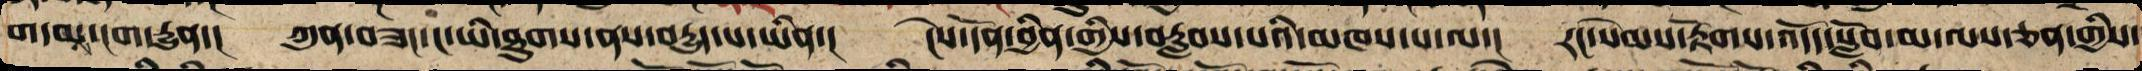གདམས་ངག་རྒྱུན་།   ཀུན་བཟང་ང་ཡི་ཐུགས་ནས་བདྱུད་པ་ཡིན་།   ངེས་དོན་བྱིན་གྱིས་བརླབས་པའི་མཁས་པ་ལ་།    རང་སེམས་རྟོགས་འདོད་སློབ་མ་ལས་ཅན་གྱིས་
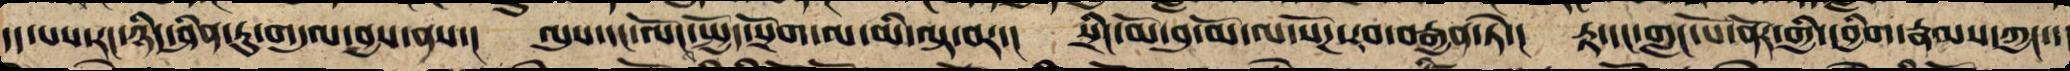དད་པས་རང་ཉིད་ཤིན་ཏུ་གདུལ་བྱས་ནས་།   ལུས་དང་ལོང་སྤྱོད་སྲོག་ལ་མི་ལྟ་བར་།   སྲིང་མོ་བུ་མོ་ལ་སོཌ་རབ་བརྒྱན་ཏེ་།   རྟ་དང་གླང་པོ་ནོར་གྱི་དབྱིག་རྣམས་ཀྱང་་
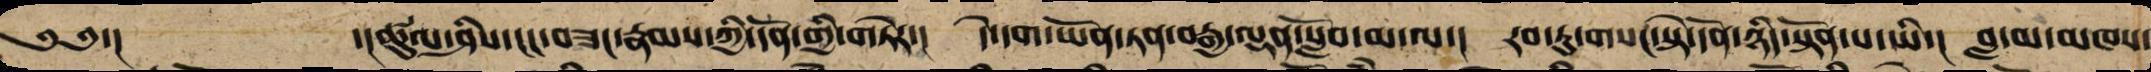༄༅་།            ་།ཚུལ་ཤིས་ངང་བཟང་རྣམས་ཀྱི་དོན་གྱི་གཏེར་།    དེ་དག་ཡོན་ཏན་བརྒྱ་ལྡན་སློབ་མ་ལ་།    རབ་ཏུ་གསང་སྟེ་དོན་ཉིད་སྟོན་པ་ཡི་།    བླ་མ་མཁས་
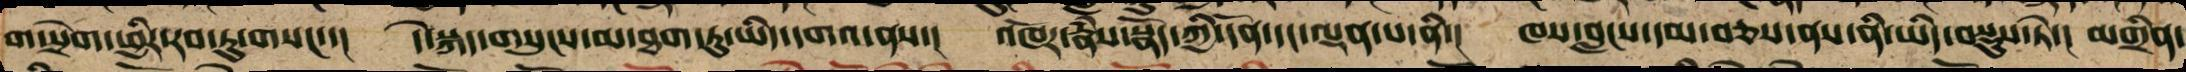ག་སྲེག་ཕྱིར་རབ་ཏུ་གསང་་།   དེ་སྐད་གསུངས་མ་ཐག་ཏུ་ཡིད་དགའ་ནས་།   འཁོར་རྣཾས་སྣོད་ཀྱི་དོན་དང་ལྡན་པ་ནི་།   ཁས་བླངས་དམ་བཅས་ནས་ནི་ཡིད་བསྡུས་ཏེ་།   མགྲིན་
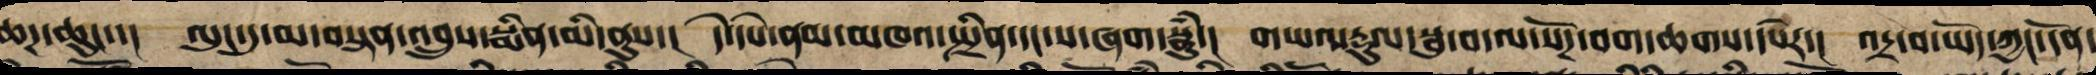ཆཌ་ཆུང་་།   ལུང་དུ་མ་བསྟན་འབྲུས་སྨིན་མི་ནུས་།   དེ་དཔེ་ནམ་མཁའ་སྤྲིན་དང་ས་ཞག་སྣུཾ་།   གཡའ་རྡུལ་ལྦུ་བ་ལ་སོཌ་བག་ཆགས་དཔེར་།   འདྲ་བ་ཡོད་ཀྱང་དོན་
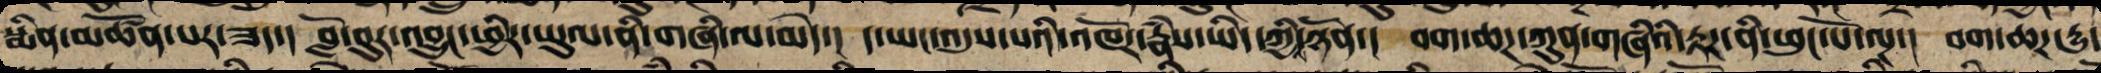སྨིན་མཚོན་པར་ཟད་།   གློ་བུར་འབྱུང་ཕྱིར་ཡུལ་ནི་གཞི་ལ་མེད་།    ད་ཡང་འདུས་པའི་འཁོར་རྣཾས་ཡིད་ཀྱི་ཉོན་།   བག་ཆཌ་ཀུན་གཞིའི་རྟཌ་ནི་ཕུང་པོ་ལྔ་།   བག་ཆཌ་དྱུ་
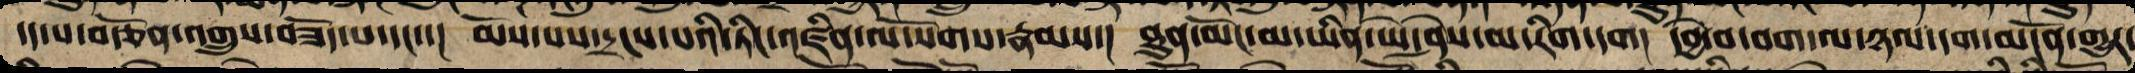དད་པ་བརྩོན་འགྲུས་བཟོད་པ་དང་་།   མོས་པས་དྲངས་པའི་ཏིང་འཛིན་ལ་སོགས་རྣམས་།   ཐུན་མོང་མ་ཡིན་ཡེ་ཤེས་མ་རིག་དག།   དབྱེ་བ་བག་ལ་ཉལ་དག་མངོན་གྱུར་
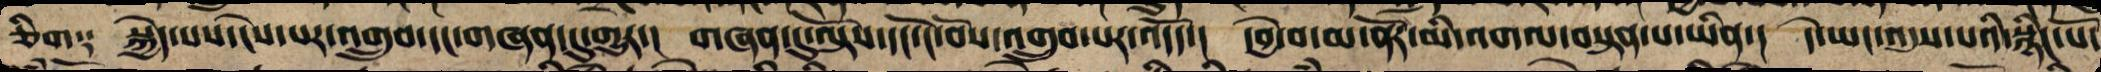ཅིག༑   སྐྱེད་པས་ངེས་པར་འགྲུབ་དང་གཞན་དུ་གྱུར་།   གཞན་དུ་ལྟོས་དང་ངོ་བོས་འགྲུབ་པར་འདོད་།   དབྱེ་བ་མ་ནོར་མི་འགལ་བསྟན་པ་ཡིན་།   དེ་ཡང་འདུས་པའི་སྙིང་པོ་
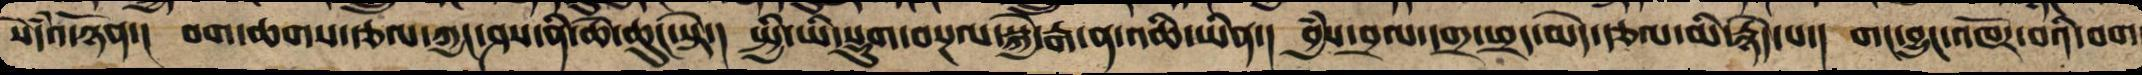སེཾདའ་ཉོན་།   བག་ཆགས་རྩལ་ཀྱང་ཤས་ནི་ཆེ་ཆུང་སྟེ་།   སྤྱི་ཡི་སྡུག་བསྔལ་སྐྱེ་རྒ་ན་འཆི་ཡིན་།   བྱཾས་བྲལ་དགྲ་ཕྲད་མེད་རྩལ་མི་རྙེད་པ་།   གང་བྱུང་འཁོར་བའི་བག་
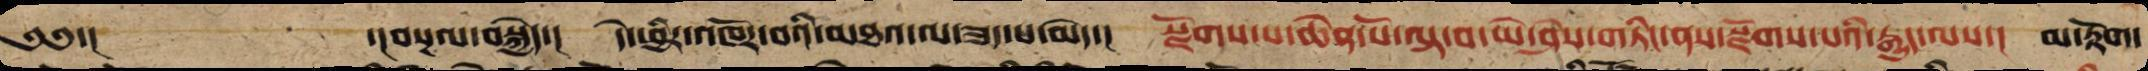༄༅་།         ་།བསྔལ་བསྐྱེད།   དེ་ཕྱིར་འཁོར་བའི་མཐའ་ལ་ཟད་པ་མེད་།   སྫོགས་པ་ཆེན་པོ་ལྟ་བ་ཡེ་ཤེས་གཏིང་ནས་སྫོགས་པའི་རྒྱུད་ལས་།   མ་རྟོག་
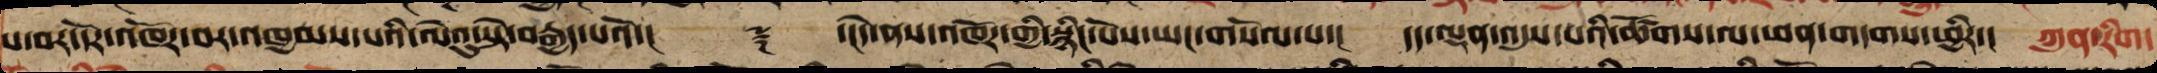པ་བར་དོར་འཁོར་བར་འཁྱམས་པའི་ལེའུ་སྟེ་བརྒྱད་པའོ་།།      ༈     ་།།དེ་ནས་འཁོར་གྱི་སྙིང་པོས་ཡང་གསོལ་པ་།   དད་ལྡན་འདུས་པའི་ཚོགས་ལ་ཕན་གདགས་ཕྱིར་།   ཀུན་རིག་
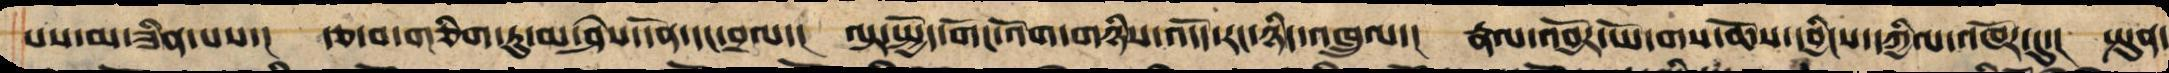པས་མ་ཟིན་པས་།   རྩ་བ་གཅིག་ཏུ་མ་ཤེས་དོན་དང་བྲལ་།   ལྟ་སྤྱོད་གོང་འོག་གཉིས་འདོད་རང་ཉིད་འཁྲུལ་།   རྣལ་འབྱོར་ཡོ་གས་ཆོས་དབྱིངས་དཀྱིལ་འཁོར་དུ་།   སྤུན་
